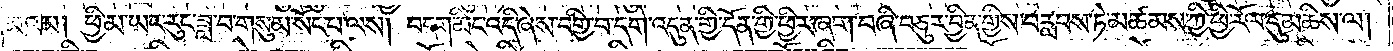མའམ། ཕྱི་མ་ཡང་རུང་ཟླ་བ་གསུམ་སོང་པ་ལས། བདག་མིང་འདི་ཞེས་བགྱི་བ་དགེ་འདུན་གྱི་དོན་གྱི་ཕྱིར་ཞག་བཞི་བཅུར་བྱིན་གྱིས་བརླབས་ཏེ་མཚམས་ཀྱི་ཕྱི་རོལ་དུ་མཆིས་ལ།
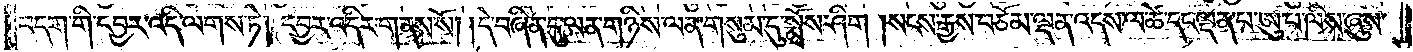བདག་གི་དབྱར་འདི་ལགས་ཏེ། དབྱར་འདིར་གནས་སོ། །དེ་བཞིན་དུ་ལན་གཉིས་ལན་གསུམ་དུ་སྨྲོས་ཤིག །སངས་རྒྱས་བཅོམ་ལྡན་འདས་ལ་ཚེ་དང་ལྡན་པ་ཨུ་པ་ལིས་ཞུས་
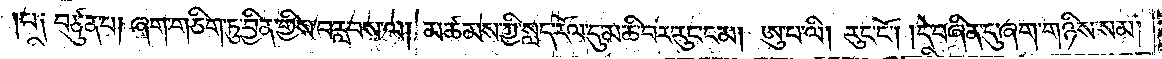པ༑ བཙུན་པ། ཞག་གཅིག་ཏུ་བྱིན་གྱིས་བརླབས་ལ། མཚམས་ཀྱི་སླད་རོལ་དུ་མཆི་བར་རུང་ངམ། ཨུ་པ་ལི། རུང་ངོ༌། །དེ་བཞིན་དུ་ཞག་གཉིས་སམ།
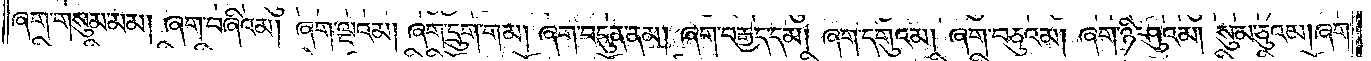ཞག་གསུམ་མམ། ཞག་བཞིའམ། ཞག་ལྔའམ། ཞག་དྲུག་གམ། ཞག་བདུན་ནམ། ཞག་བརྒྱད་དམ། ཞག་དགུའམ། ཞག་བཅུའམ། ཞག་ཉི་ཤུའམ། སུམ་ཅུའམ། ཞག་
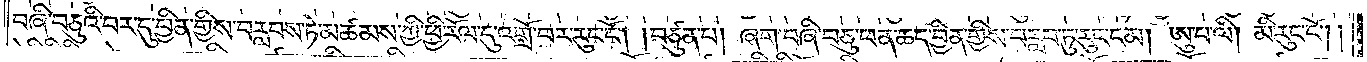བཞི་བཅུའི་བར་དུ་བྱིན་གྱིས་བརླབས་ཏེ་མཚམས་ཀྱི་ཕྱིར་རོལ་དུ་འགྲོ་བར་རུང་ངོ༌། །བཙུན་པ། ཞག་བཞི་བཅུ་ཕན་ཆད་བྱིན་གྱིས་བརླབ་ཏུ་རུང་ངམ། ཨུ་པ་ལི། མི་རུང་ངོ༌།
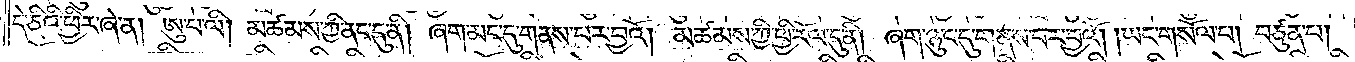དེ་ཅིའི་ཕྱིར་ཞེ་ན། ཨུ་པ་ལི། མཚམས་ཀྱི་ནང་དུ་ནི། ཞག་མང་དུ་གནས་པར་བྱའོ། །མཚམས་ཀྱི་ཕྱི་རོལ་དུ་ནི། ཞག་ཉུང་དུ་གནས་པར་བྱའོ། །ཡང་གསོལ་པ། བཙུན་པ།
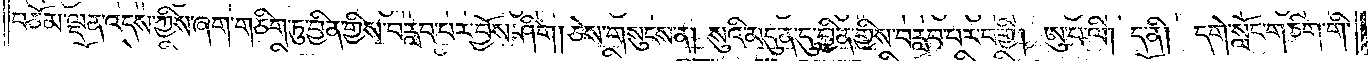བཅོམ་ལྡན་འདས་ཀྱིས་ཞག་གཅིག་ཏུ་བྱིན་གྱིས་བརླབ་པར་བྱོས་ཤིག །ཅེས་གསུངས་ན། སུའི་མདུན་དུ་བྱིན་གྱིས་བརླབ་པར་བགྱི། ཨུ་པ་ལི། ད་ནི། དགེ་སློང་གཅིག་གི་
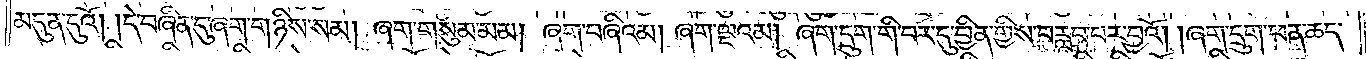མདུན་དུའོ། །དེ་བཞིན་དུ་ཞག་གཉིས་སམ། ཞག་གསུམ་མམ། ཞག་བཞིའམ། ཞག་ལྔའམ། ཞག་དྲུག་གི་བར་དུ་བྱིན་གྱིས་བརླབ་པར་བྱའོ། །ཞག་དྲུག་ཕན་ཆད་
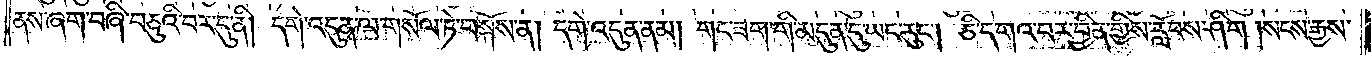ནས་ཞག་བཞི་བཅུའི་བར་དུ་ནི། དགེ་འདུན་ལ་གསོལ་ཏེ་བསྐོས་ན། དགེ་འདུན་ནམ། གང་ཟག་གི་མདུན་དུ་ཡང་རུང༌། ཅི་དགའ་བར་བྱིན་གྱིས་རློབས་ཤིག །སངས་རྒྱས་
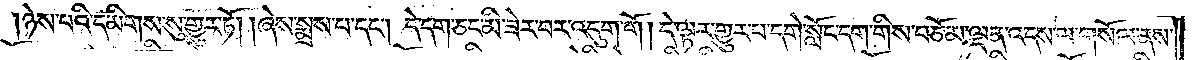ཉེས་པའི་དམིགས་སུ་གྱུར་ཏོ། །ཞེས་སྨྲས་པ་དང༌། དེ་དག་ཅང་མི་ཟེར་བར་འདུག་གོ །དེ་ལྟར་གྱུར་པ་དགེ་སློང་དག་གིས་བཅོམ་ལྡན་འདས་ལ་གསོལ་ནས་
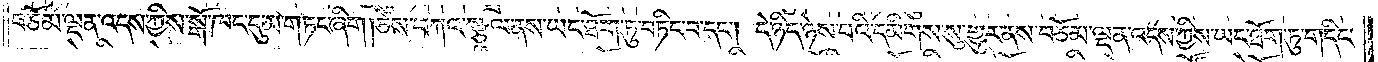བཅོམ་ལྡན་འདས་ཀྱིས་སྒོ་ཁང་དུ་མ་གཏང་ཞིག །ཅེས་བཀའ་སྩལ་ནས་ཡང་ཐོག་ཏུ་བཏིང་བ་དང༌། དེ་ཉིད་ཉེས་པའི་དམིགས་སུ་གྱུར་ནས་བཅོམ་ལྡན་འདས་ཀྱིས་ཡང་ཐོག་ཏུ་གདིང་
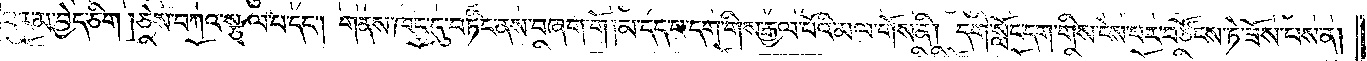བར་མ་བྱེད་ཅིག །ཅེས་བཀའ་སྩལ་པ་དང༌། གནས་ཁང་དུ་བཏིང་ནས་བཞག་གོ །མ་དད་པ་དག་གིས་རྒྱལ་པོའི་མལ་གོས་ནི། དགེ་སློང་དག་གིས་ངེས་པར་བཙོངས་ཏེ་ཟོས་པས་ན།
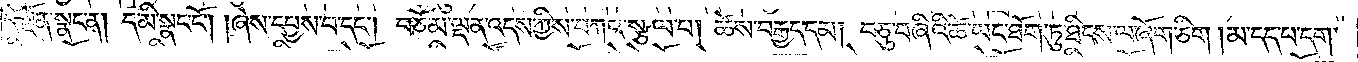དེ་སྔོན་སྣང་ན། ད་མི་སྣང་ངོ༌། །ཞེས་དཔྱས་པ་དང༌། བཅོམ་ལྡན་འདས་ཀྱིས་བཀའ་སྩལ་པ། ཚེས་བརྒྱད་དམ། བཅུ་བཞིའི་ཚེ་ཡང་ཐོག་ཏུ་ཐིངས་ལ་ཞོག་ཅིག །མ་དད་པ་དག་
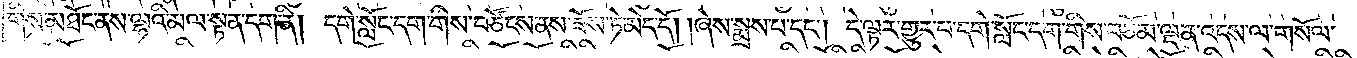གིས་མཐོང་ནས་ལྷའི་མལ་སྟན་དག་ནི། དགེ་སློང་དག་གིས་བཙོངས་ནས་ཟོས་ཏེ་མེད་དོ། །ཞེས་སྨྲས་པ་དང༌། དེ་ལྟར་གྱུར་པ་དགེ་སློང་དག་གིས་བཅོམ་ལྡན་འདས་ལ་གསོལ་
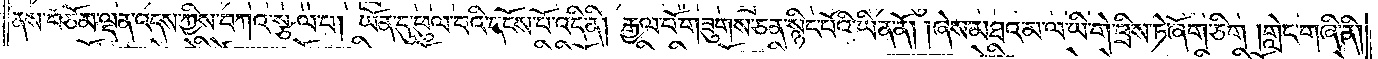ནས་བཅོམ་ལྡན་འདས་ཀྱིས་བཀའ་སྩལ་པ། ཡོན་དུ་ཕུལ་བའི་དངོས་པོ་འདི་ནི། རྒྱལ་པོ་གཟུགས་ཅན་སྙིང་པོའི་ཡིན་ནོ། །ཞེས་མཐའ་མ་ལ་ཡི་གེ་བྲིས་ཏེ་ཞོག་ཅིག །གླེང་གཞི་ནི།
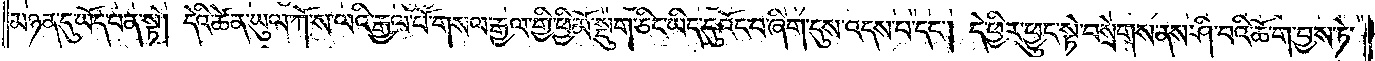མཉན་དུ་ཡོད་པ་ན་སྟེ། དེའི་ཚེ་ན་ཡུལ་ཀོ་ས་ལའི་རྒྱལ་པོ་གསལ་རྒྱལ་གྱི་ཕྱི་མོ་སྡུག་ཅིང་ཡིད་དུ་འོང་བ་ཞིག་དུས་འདས་པ་དང༌། དེ་ཕྱིར་ཕྱུང་སྟེ་བསྲེགས་ནས་ཤི་བའི་ཆོ་ག་བྱས་ཏེ་
